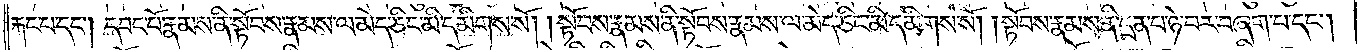རྐང་པ་དང༌། དབང་པོ་རྣམས་ནི་སྟོབས་རྣམས་ལ་མེད་ཅིང་མི་དམིགས་སོ། །སྟོབས་རྣམས་ནི་སྟོབས་རྣམས་ལ་མེད་ཅིང་མི་དམིགས་སོ། །སྟོབས་རྣམས་ནི་དྲན་པ་ཉེ་བར་བཞག་པ་དང༌།
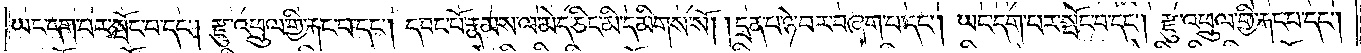ཡང་དག་པར་སྤོང་བ་དང༌། རྫུ་འཕྲུལ་གྱི་རྐང་པ་དང༌། དབང་པོ་རྣམས་ལ་མེད་ཅིང་མི་དམིགས་སོ། །དྲན་པ་ཉེ་བར་བཞག་པ་དང༌། ཡང་དག་པར་སྤོང་བ་དང༌། རྫུ་འཕྲུལ་གྱི་རྐང་པ་དང༌།
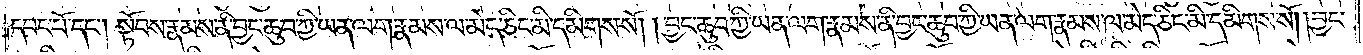དབང་པོ་དང༌། སྟོབས་རྣམས་ནི་བྱང་ཆུབ་ཀྱི་ཡན་ལག་རྣམས་ལ་མེད་ཅིང་མི་དམིགས་སོ། །བྱང་ཆུབ་ཀྱི་ཡན་ལག་རྣམས་ནི་བྱང་ཆུབ་ཀྱི་ཡན་ལག་རྣམས་ལ་མེད་ཅིང་མི་དམིགས་སོ། །བྱང་
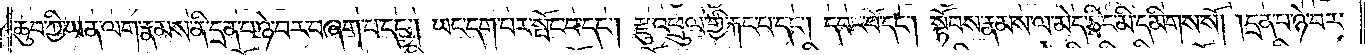ཆུབ་ཀྱི་ཡན་ལག་རྣམས་ནི་དྲན་པ་ཉེ་བར་བཞག་པ་དང༌། ཡང་དག་པར་སྤོང་བ་དང༌། རྫུ་འཕྲུལ་གྱི་རྐང་པ་དང༌། དབང་པོ་དང༌། སྟོབས་རྣམས་ལ་མེད་ཅིང་མི་དམིགས་སོ། །དྲན་པ་ཉེ་བར་
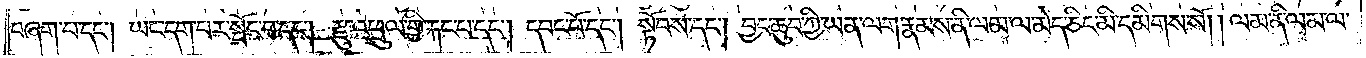བཞག་པ་དང༌། ཡང་དག་པར་སྤོང་བ་དང༌། རྫུ་འཕྲུལ་གྱི་རྐང་པ་དང༌། དབང་པོ་དང༌། སྟོབས་དང༌། བྱང་ཆུབ་ཀྱི་ཡན་ལག་རྣམས་ནི་ལམ་ལ་མེད་ཅིང་མི་དམིགས་སོ། །ལམ་ནི་ལམ་ལ་
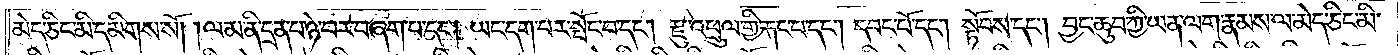མེད་ཅིང་མི་དམིགས་སོ། །ལམ་ནི་དྲན་པ་ཉེ་བར་བཞག་པ་དང༌། ཡང་དག་པར་སྤོང་བ་དང༌། རྫུ་འཕྲུལ་གྱི་རྐང་པ་དང༌། དབང་པོ་དང༌། སྟོབས་དང༌། བྱང་ཆུབ་ཀྱི་ཡན་ལག་རྣམས་ལ་མེད་ཅིང་མི་
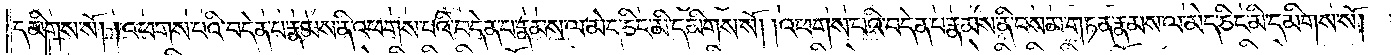དམིགས་སོ། །འཕགས་པའི་བདེན་པ་རྣམས་ནི་འཕགས་པའི་བདེན་པ་རྣམས་ལ་མེད་ཅིང་མི་དམིགས་སོ། །འཕགས་པའི་བདེན་པ་རྣམས་ནི་བསམ་གཏན་རྣམས་ལ་མེད་ཅིང་མི་དམིགས་སོ། །
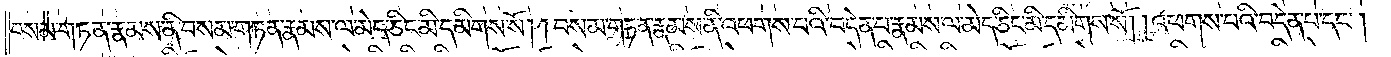བསམ་གཏན་རྣམས་ནི་བསམ་གཏན་རྣམས་ལ་མེད་ཅིང་མི་དམིགས་སོ། །བསམ་གཏན་རྣམས་ནི་འཕགས་པའི་བདེན་པ་རྣམས་ལ་མེད་ཅིང་མི་དམིགས་སོ། །འཕགས་པའི་བདེན་པ་དང༌།
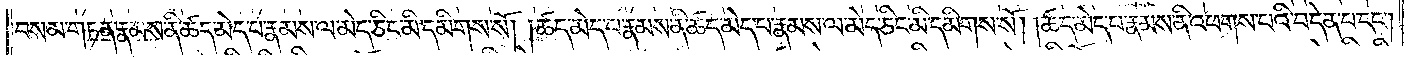བསམ་གཏན་རྣམས་ནི་ཚད་མེད་པ་རྣམས་ལ་མེད་ཅིང་མི་དམིགས་སོ། །ཚད་མེད་པ་རྣམས་ནི་ཚད་མེད་པ་རྣམས་ལ་མེད་ཅིང་མི་དམིགས་སོ། །ཚད་མེད་པ་རྣམས་ནི་འཕགས་པའི་བདེན་པ་དང༌།
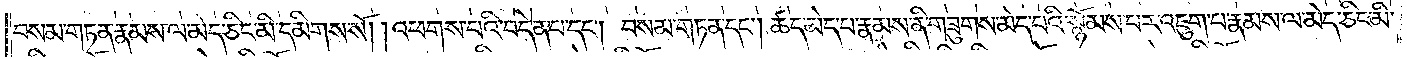བསམ་གཏན་རྣམས་ལ་མེད་ཅིང་མི་དམིགས་སོ། །འཕགས་པའི་བདེན་པ་དང༌། བསམ་གཏན་དང༌། ཚད་མེད་པ་རྣམས་ནི་གཟུགས་མེད་པའི་སྙོམས་པར་འཇུག་པ་རྣམས་ལ་མེད་ཅིང་མི་
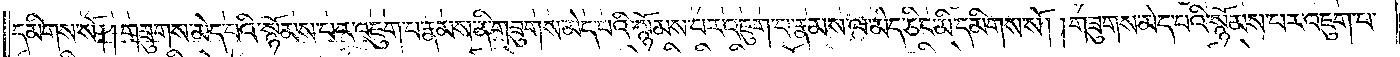དམིགས་སོ། །གཟུགས་མེད་པའི་སྙོམས་པར་འཇུག་པ་རྣམས་ནི་གཟུགས་མེད་པའི་སྙོམས་པར་འཇུག་པ་རྣམས་ལ་མེད་ཅིང་མི་དམིགས་སོ། །གཟུགས་མེད་པའི་སྙོམས་པར་འཇུག་པ་
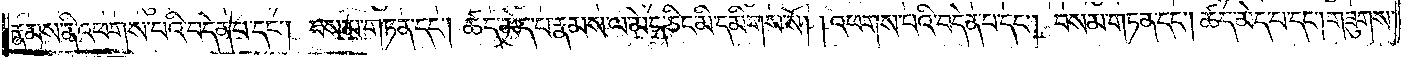རྣམས་ནི་འཕགས་པའི་བདེན་པ་དང༌། བསམ་གཏན་དང༌། ཚད་མེད་པ་རྣམས་ལ་མེད་ཅིང་མི་དམིགས་སོ། །འཕགས་པའི་བདེན་པ་དང༌། བསམ་གཏན་དང༌། ཚད་མེད་པ་དང༌། གཟུགས་
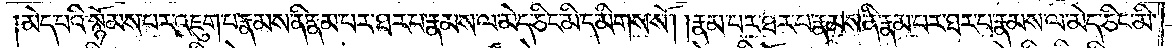མེད་པའི་སྙོམས་པར་འཇུག་པ་རྣམས་ནི་རྣམ་པར་ཐར་པ་རྣམས་ལ་མེད་ཅིང་མི་དམིགས་སོ། །རྣམ་པར་ཐར་པ་རྣམས་ནི་རྣམ་པར་ཐར་པ་རྣམས་ལ་མེད་ཅིང་མི་
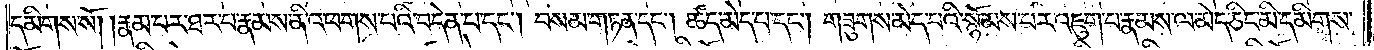དམིགས་སོ། །རྣམ་པར་ཐར་པ་རྣམས་ནི་འཕགས་པའི་བདེན་པ་དང༌། བསམ་གཏན་དང༌། ཚད་མེད་པ་དང༌། གཟུགས་མེད་པའི་སྙོམས་པར་འཇུག་པ་རྣམས་ལ་མེད་ཅིང་མི་དམིགས་
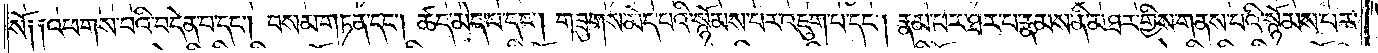སོ། །འཕགས་པའི་བདེན་པ་དང༌། བསམ་གཏན་དང༌། ཚད་མེད་པ་དང༌། གཟུགས་མེད་པའི་སྙོམས་པར་འཇུག་པ་དང༌། རྣམ་པར་ཐར་པ་རྣམས་ནི་མཐར་གྱིས་གནས་པའི་སྙོམས་པར་
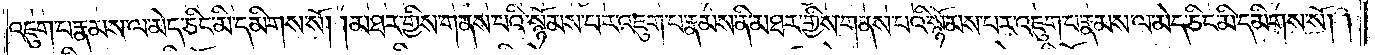འཇུག་པ་རྣམས་ལ་མེད་ཅིང་མི་དམིགས་སོ། །མཐར་གྱིས་གནས་པའི་སྙོམས་པར་འཇུག་པ་རྣམས་ནི་མཐར་གྱིས་གནས་པའི་སྙོམས་པར་འཇུག་པ་རྣམས་ལ་མེད་ཅིང་མི་དམིགས་སོ། །
